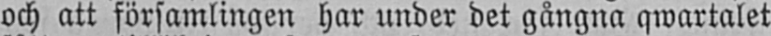och att församlingen har under det gångna qwartalet
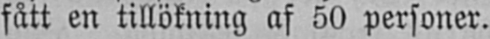fått en tillökning af 50 personer.
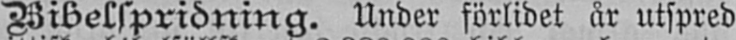Bibelspridning. Under förlidet år utspred
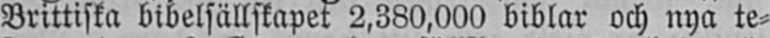Brittiska bibelsällskapet 2,380,000 biblar och nya te-
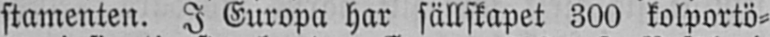stamenten. I Europa har sällskapet 300 kolportö-
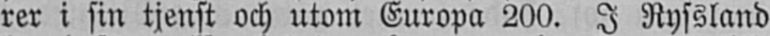rer i sin tjenst och utom Europa 200. I Ryssland
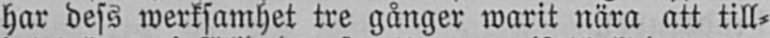har dess werksamhet tre gånger warit nära att till-
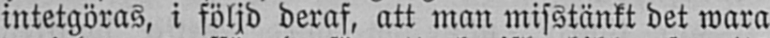intetgöras, i följd deraf, att man misstänkt det wara
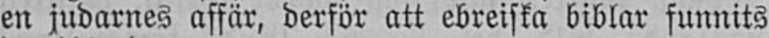en judarnes affär, derför att ebreiska biblar funnits
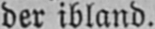der ibland.
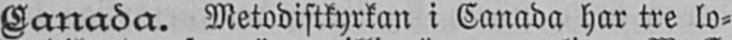Canada. Metodistkyrkan i Canada har tre lo-
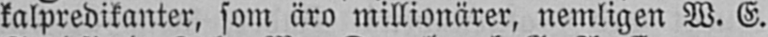kalpredikanter, som äro millionärer, nemligen W. E.
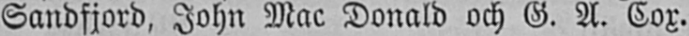Sandfjord, John Mac Donald och G. A. Cox.
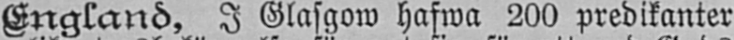England, I Glasgow hafwa 200 predikanter
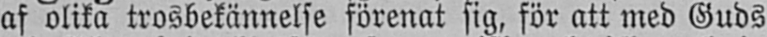af olika trosbekännelse förenat sig, för att med Guds
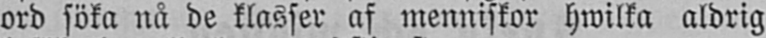ord söka nå de klasser af menniskor hwilka aldrig
